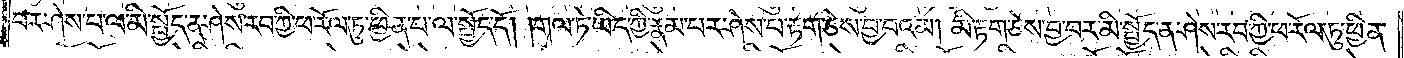པར་ཤེས་པ་ལ་མི་སྤྱོད་ན་ཤེས་རབ་ཀྱི་ཕ་རོལ་ཏུ་ཕྱིན་པ་ལ་སྤྱོད་དོ། །གལ་ཏེ་ཡིད་ཀྱི་རྣམ་པར་ཤེས་པ་རྟག་ཅེས་བྱ་བའམ། མི་རྟག་ཅེས་བྱ་བར་མི་སྤྱོད་ན་ཤེས་རབ་ཀྱི་ཕ་རོལ་ཏུ་ཕྱིན་
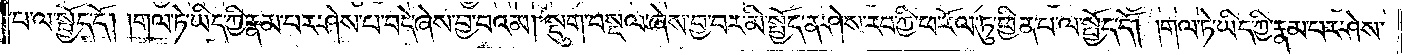པ་ལ་སྤྱོད་དོ། །གལ་ཏེ་ཡིད་ཀྱི་རྣམ་པར་ཤེས་པ་བདེ་ཞེས་བྱ་བའམ། སྡུག་བསྔལ་ཞེས་བྱ་བར་མི་སྤྱོད་ན་ཤེས་རབ་ཀྱི་ཕ་རོལ་ཏུ་ཕྱིན་པ་ལ་སྤྱོད་དོ། །གལ་ཏེ་ཡིད་ཀྱི་རྣམ་པར་ཤེས་
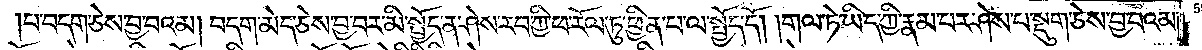པ་བདག་ཅེས་བྱ་བའམ། བདག་མེད་ཅེས་བྱ་བར་མི་སྤྱོད་ན་ཤེས་རབ་ཀྱི་ཕ་རོལ་ཏུ་ཕྱིན་པ་ལ་སྤྱོད་དོ། །གལ་ཏེ་ཡིད་ཀྱི་རྣམ་པར་ཤེས་པ་སྡུག་ཅེས་བྱ་བའམ།
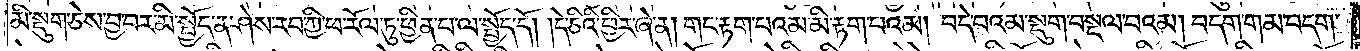མི་སྡུག་ཅེས་བྱ་བར་མི་སྤྱོད་ན་ཤེས་རབ་ཀྱི་ཕ་རོལ་ཏུ་ཕྱིན་པ་ལ་སྤྱོད་དོ། །དེ་ཅིའི་ཕྱིར་ཞེ་ན། གང་རྟག་པའམ་མི་རྟག་པའམ། བདེ་བའམ་སྡུག་བསྔལ་བའམ། བདག་གམ་བདག་
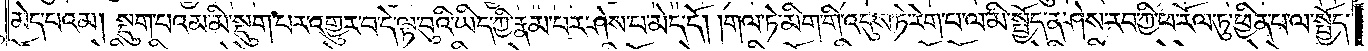མེད་པའམ། སྡུག་པའམ་མ་སྡུག་པར་འགྱུར་བ་དེ་ལྟ་བུའི་ཡིད་ཀྱི་རྣམ་པར་ཤེས་པ་མེད་དོ། །གལ་ཏེ་མིག་གི་འདུས་ཏེ་རེག་པ་ལ་མི་སྤྱོད་ན་ཤེས་རབ་ཀྱི་ཕ་རོལ་ཏུ་ཕྱིན་པ་ལ་སྤྱོད་
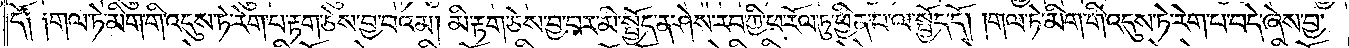དོ༑ ༑གལ་ཏེ་མིག་གི་འདུས་ཏེ་རེག་པ་རྟག་ཅེས་བྱ་བའམ། མི་རྟག་ཅེས་བྱ་བར་མི་སྤྱོད་ན་ཤེས་རབ་ཀྱི་ཕ་རོལ་ཏུ་ཕྱིན་པ་ལ་སྤྱོད་དོ། །གལ་ཏེ་མིག་གི་འདུས་ཏེ་རེག་པ་བདེ་ཞེས་བྱ་
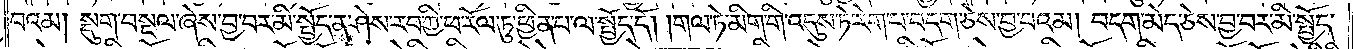བའམ། སྡུག་བསྔལ་ཞེས་བྱ་བར་མི་སྤྱོད་ན་ཤེས་རབ་ཀྱི་ཕ་རོལ་ཏུ་ཕྱིན་པ་ལ་སྤྱོད་དོ། །གལ་ཏེ་མིག་གི་འདུས་ཏེ་རེག་པ་བདག་ཅེས་བྱ་བའམ། བདག་མེད་ཅེས་བྱ་བར་མི་སྤྱོད་
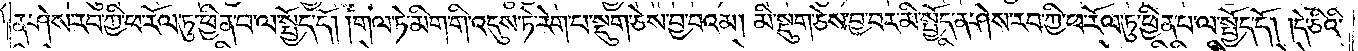ན་ཤེས་རབ་ཀྱི་ཕ་རོལ་ཏུ་ཕྱིན་པ་ལ་སྤྱོད་དོ། །གལ་ཏེ་མིག་གི་འདུས་ཏེ་རེག་པ་སྡུག་ཅེས་བྱ་བའམ། མི་སྡུག་ཅེས་བྱ་བར་མི་སྤྱོད་ན་ཤེས་རབ་ཀྱི་ཕ་རོལ་ཏུ་ཕྱིན་པ་ལ་སྤྱོད་དོ། །དེ་ཅིའི་
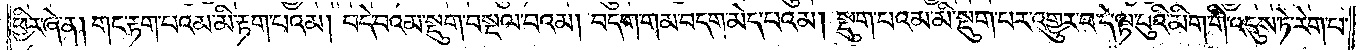ཕྱིར་ཞེ་ན། གང་རྟག་པའམ་མི་རྟག་པའམ། བདེ་བའམ་སྡུག་བསྔལ་བའམ། བདག་གམ་བདག་མེད་པའམ། སྡུག་པའམ་མི་སྡུག་པར་འགྱུར་བ་དེ་ལྟ་བུའི་མིག་གི་འདུས་ཏེ་རེག་པ་
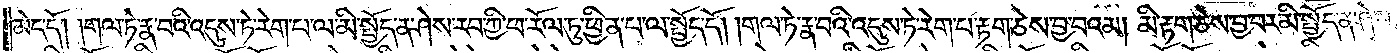མེད་དོ། །གལ་ཏེ་རྣ་བའི་འདུས་ཏེ་རེག་པ་ལ་མི་སྤྱོད་ན་ཤེས་རབ་ཀྱི་ཕ་རོལ་ཏུ་ཕྱིན་པ་ལ་སྤྱོད་དོ། །གལ་ཏེ་རྣ་བའི་འདུས་ཏེ་རེག་པ་རྟག་ཅེས་བྱ་བའམ། མི་རྟག་ཅེས་བྱ་བར་མི་སྤྱོད་ན་ཤེས་
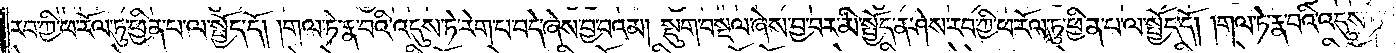རབ་ཀྱི་ཕ་རོལ་ཏུ་ཕྱིན་པ་ལ་སྤྱོད་དོ། །གལ་ཏེ་རྣ་བའི་འདུས་ཏེ་རེག་པ་བདེ་ཞེས་བྱ་བའམ། སྡུག་བསྔལ་ཞེས་བྱ་བར་མི་སྤྱོད་ན་ཤེས་རབ་ཀྱི་ཕ་རོལ་ཏུ་ཕྱིན་པ་ལ་སྤྱོད་དོ། །གལ་ཏེ་རྣ་བའི་འདུས་ཏེ་
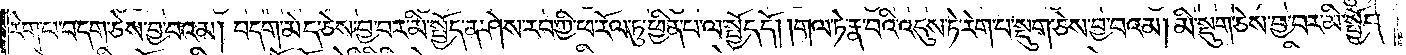རེག་པ་བདག་ཅེས་བྱ་བའམ། བདག་མེད་ཅེས་བྱ་བར་མི་སྤྱོད་ན་ཤེས་རབ་ཀྱི་ཕ་རོལ་ཏུ་ཕྱིན་པ་ལ་སྤྱོད་དོ། །གལ་ཏེ་རྣ་བའི་འདུས་ཏེ་རེག་པ་སྡུག་ཅེས་བྱ་བའམ། །མི་སྡུག་ཅེས་བྱ་བར་མི་སྤྱོད་
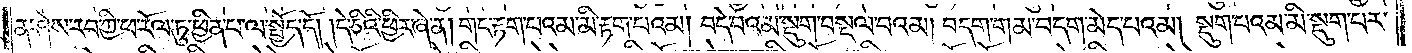ན་ཤེས་རབ་ཀྱི་ཕ་རོལ་ཏུ་ཕྱིན་པ་ལ་སྤྱོད་དོ། །དེ་ཅིའི་ཕྱིར་ཞེ་ན། གང་རྟག་པའམ་མི་རྟག་པའམ། བདེ་བའམ་སྡུག་བསྔལ་བའམ། བདག་གམ་བདག་མེད་པའམ། སྡུག་པའམ་མི་སྡུག་པར་
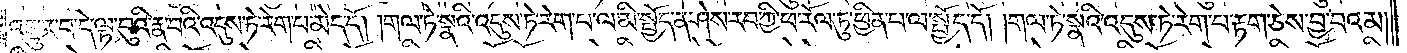འགྱུར་བ་དེ་ལྟ་བུའི་རྣ་བའི་འདུས་ཏེ་རེག་པ་མད་དོ། །གལ་ཏེ་སྣའི་འདུས་ཏེ་རེག་པ་ལ་མི་སྤྱོད་ན་ཤེས་རབ་ཀྱི་ཕ་རོལ་ཏུ་ཕྱིན་པ་ལ་སྤྱོད་དོ། །གལ་ཏེ་སྣའི་འདུས་ཏེ་རེག་པ་རྟག་ཅེས་བྱ་བའམ།
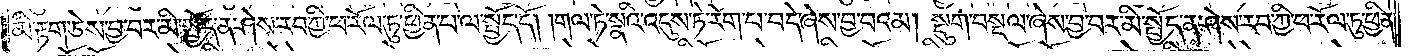མི་རྟག་ཅེས་བྱ་བར་མི་སྤྱོད་ན་ཤེས་རབ་ཀྱི་ཕ་རོལ་ཏུ་ཕྱིན་པ་ལ་སྤྱོད་དོ། །གལ་ཏེ་སྣའི་འདུས་ཏེ་རེག་པ་བདེ་ཞེས་བྱ་བའམ། སྡུག་བསྔལ་ཞེས་བྱ་བར་མི་སྤྱོད་ན་ཤེས་རབ་ཀྱི་ཕ་རོལ་ཏུ་ཕྱིན་
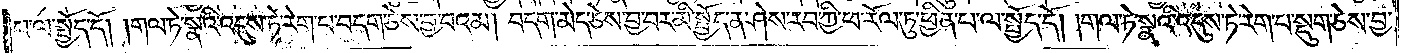པ་ལ་སྤྱོད་དོ། །གལ་ཏེ་སྣའི་འདུས་ཏེ་རེག་པ་བདག་ཅེས་བྱ་བའམ། བདག་མེད་ཅེས་བྱ་བར་མི་སྤྱོད་ན་ཤེས་རབ་ཀྱི་ཕ་རོལ་ཏུ་ཕྱིན་པ་ལ་སྤྱོད་དོ། །གལ་ཏེ་སྣའི་འདུས་ཏེ་རེག་པ་སྡུག་ཅེས་བྱ་
